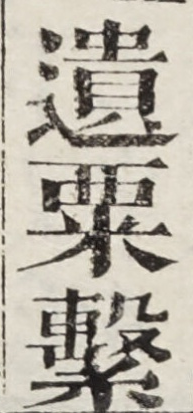遺粟系
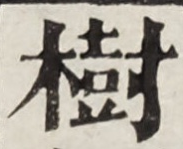樹
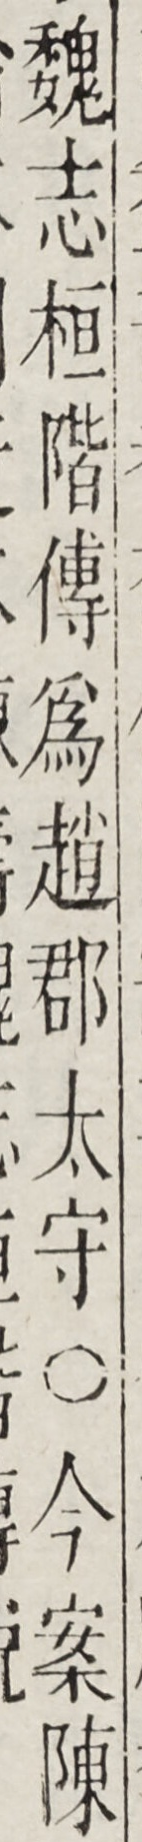魏志桓階傳為趙郡太守○今案陳
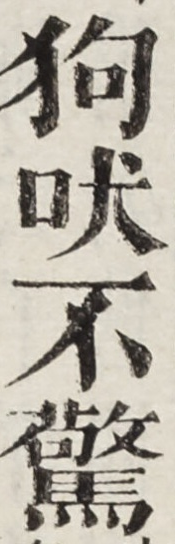狗吠不驚
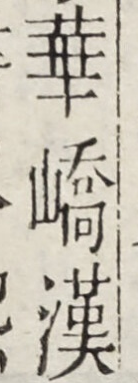華喬漢
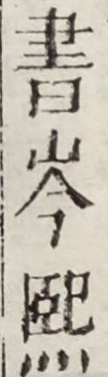書岑熙
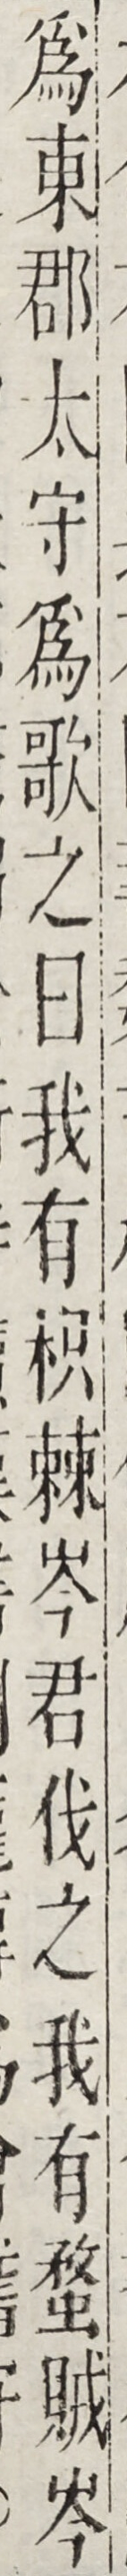為東郡太守為歌之曰我有枳棘岑君伐之我有蝥賊岑
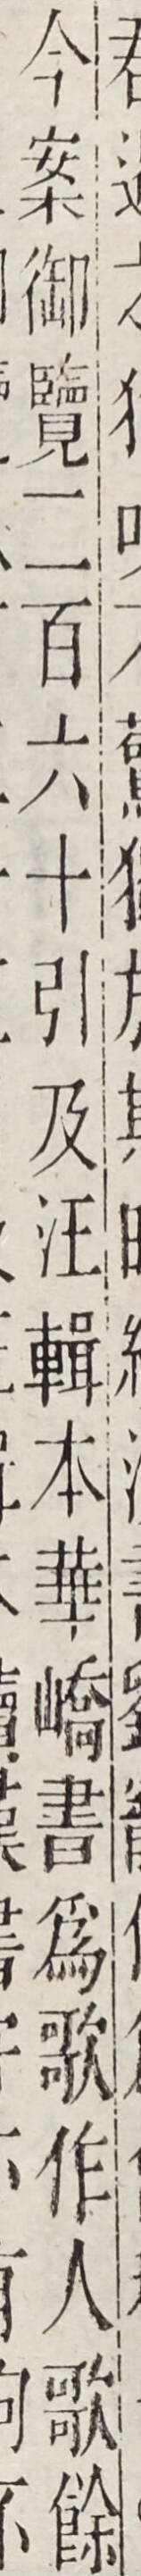今案御覽二百六十引及汪輯本華嶠書為歌作人歌餘
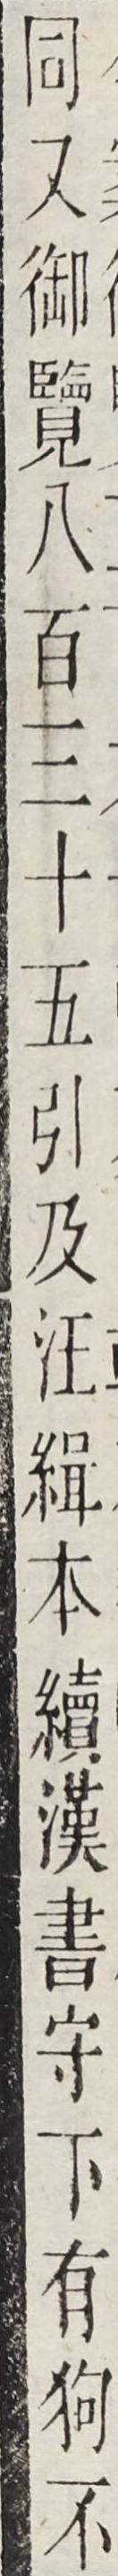同又御覽八百三十五引及汪緝本續漢書守下有狗不
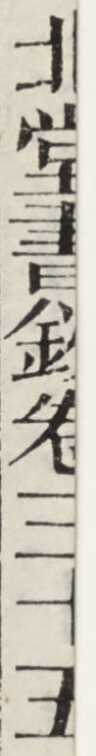北堂書鈔卷第三十五
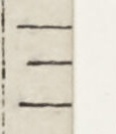三
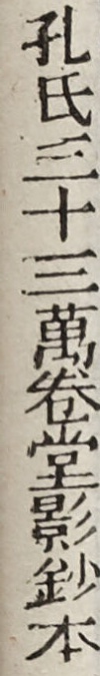孔氏三十三萬卷堂影鈔本
